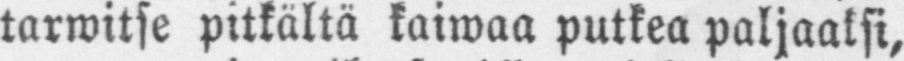tarwitse pitkältä kaiwaa putkea paljaaksi,
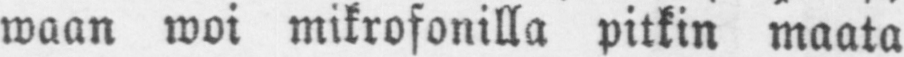waan woi mikrofonilla pitkin maata
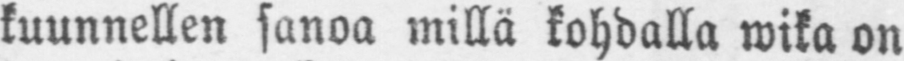kuunnellen sanoa millä kohdalla wika on
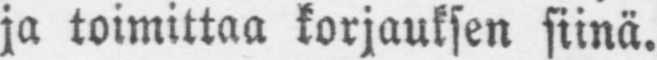ja toimittaa korjauksen siinä.
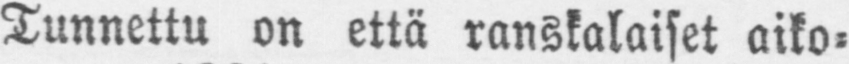Tunnettu on että ranskalaiset aiko-
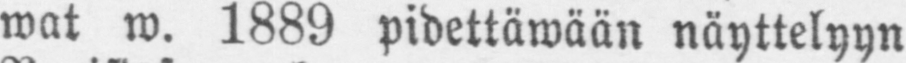wat w. 1889 pidettäwään näyttelyyn
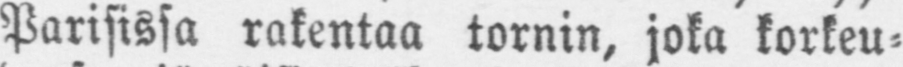Parisissa rakentaa tornin, joka korkeu-
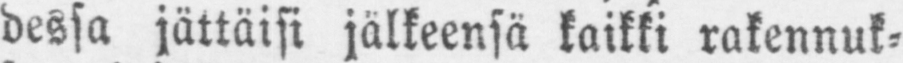dessa jättäisi jälkeensä kaikki rakennuk-
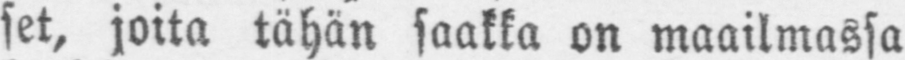set, joita tähän saakka on maailmassa
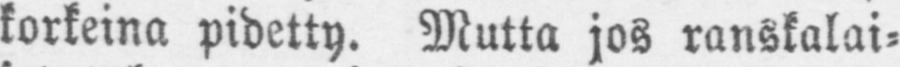korkeina pidetty. Mutta jos ranskalai-
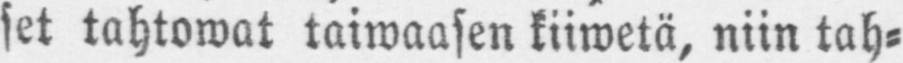set tahtowat taiwaasen kiiwetä, niin tah-
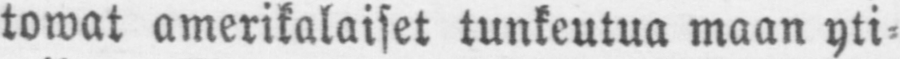towat amerikalaiset tunkeutua maan yti-
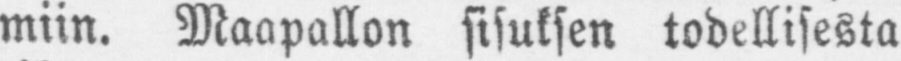miin. Maapallon sisuksen todellisesta
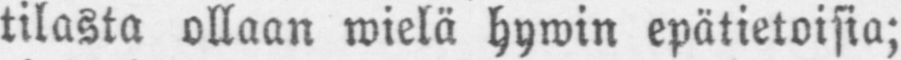tilasta ollaan wielä hywin epätietoisia;
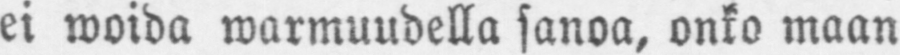ei woida warmuudella sanoa, onko maan
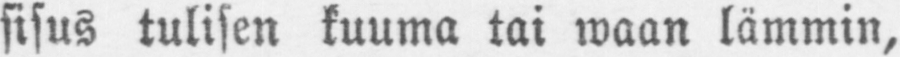sisus tulisen kuuma tai waan lämmin,
